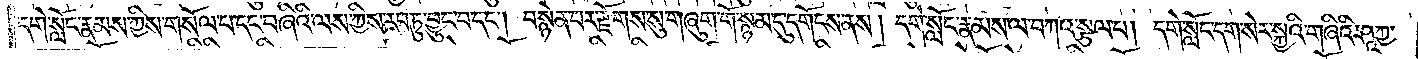དགེ་སློང་རྣམས་ཀྱིས་གསོལ་པ་དང་བཞིའི་ལས་ཀྱིས་རབ་ཏུ་བྱུང་བ་དང༌། བསྙེན་པར་རྫོགས་སུ་གཞུག་གོ་སྙམ་དུ་དགོངས་ནས། དགེ་སློང་རྣམས་ལ་བཀའ་སྩལ་པ། དགེ་སློང་དག་སེར་སྐྱའི་གཞིའི་ཤཱཀྱ་
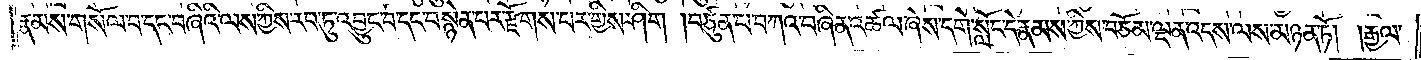རྣམས་གསོལ་བ་དང་བཞིའི་ལས་ཀྱིས་རབ་ཏུ་འབྱུང་བ་དང་བསྙེན་པར་རྫོགས་པར་གྱིས་ཤིག །བཙུན་པ་བཀའ་བཞིན་འཚལ་ཞེས་དགེ་སློང་དེ་རྣམས་ཀྱིས་བཅོམ་ལྡན་འདས་ལས་མཉན་ཏོ། །རྒྱལ་
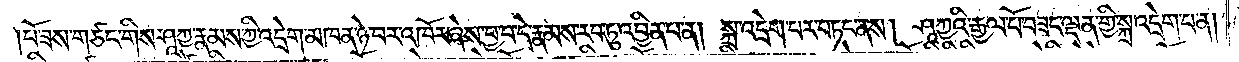པོ་ཟས་གཙང་གིས་ཤཱཀྱ་རྣམས་ཀྱི་འདྲེག་མཁན་ཉེ་བར་འཁོར་ཞེས་བྱ་བ་དེ་རྣམས་རབ་ཏུ་འབྱིན་པ་ན། སྐྲ་འདྲེག་པར་བཏང་ནས། ཤཱཀྱའི་རྒྱལ་པོ་བཟང་ལྡན་གྱི་སྐྲ་འདྲེག་པ་ན།
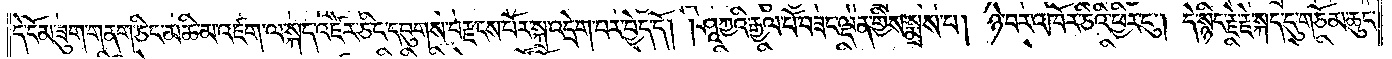དེ་ངོམ་ཟུག་གནག་ཅིང་མཆི་མ་འཛག་ལ་སྐད་འཛེར་ཅིང་དབུགས་བརྫངས་པོར་སྐྲ་འདྲེག་བར་བྱེད་དོ། །ཤཱཀྱའི་རྒྱལ་པོ་བཟང་ལྡན་གྱིས་སྨྲས་པ། ཉེ་བར་འཁོར་ཅིའི་ཕྱིར་ངུ༌། དེ་སྙིང་རྗེ་རྗེ་སྐད་དུ་གཅོམ་ཆུང་
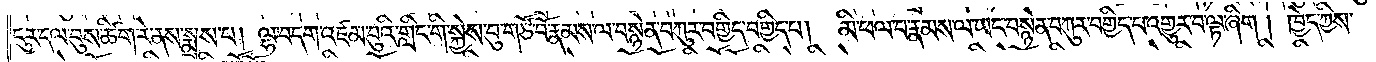ངུར་དལ་བུས་ཚིག་རེ་ནས་སྨྲས་པ། ལྷ་བདག་འཛམ་བུའི་གླིང་གི་སྐྱེས་བུ་གཙོ་བོ་རྣམས་ལ་བསྙེན་བཀུར་བགྱིད་བགྱིད་པ། མི་ཕལ་པ་རྣམས་ལ་ཡང་བསྙེན་བཀུར་བགྱིད་པ་འགྱུར་བ་ལྟ་ཞིག །ཁྱེད་ཀྱིས་
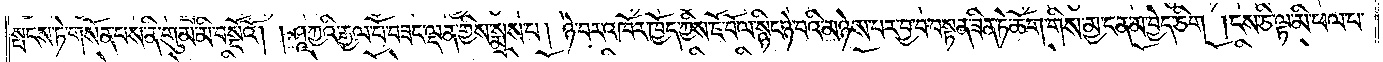སྤངས་ཏེ་གསོན་པས་ནི་གུམ་མི་བསྔོའོ། །ཤཱཀྱའི་རྒྱལ་པོ་བཟང་ལྡན་གྱིས་སྨྲས་པ། ཉེ་བར་འཁོར་ཁྱོད་ཀྱིས་ཇོ་བོ་ལ་སྙིང་ཉེ་བའི་མཉེས་པར་བྱ་བ་བསྟན་ཟིན་ཏེ་ཆོག་གིས་མྱ་ངན་མ་བྱེད་ཅིག །ངས་ཅི་ལྟ་མི་ཕལ་པ་
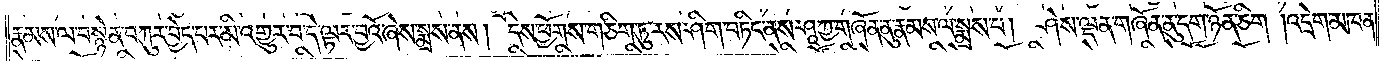རྣམས་ལ་བསྙེན་བཀུར་བྱེད་པར་མི་འགྱུར་བ་དེ་ལྟར་བྱའོ་ཞེས་སྨྲས་ནས། དེས་ཕྱོགས་གཅིག་ཏུ་རས་ཤིག་བཏིང་ནས་ཤཱཀྱ་གཞོན་ནུ་རྣམས་ལ་སྨྲས་པ། ཤེས་ལྡན་གཞོན་ནུ་དག་ཉོན་ཅིག །འདྲེག་མཁན་
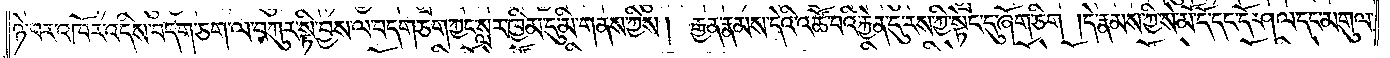ཉེ་བར་འཁོར་འདིས་བདག་ཅག་ལ་བཀུར་སྟི་བྱས་ལ་བདག་ཅག་ཀྱང་སླར་ཁྱིམ་དུ་མི་གནས་ཀྱིས། རྒྱན་རྣམས་དེའི་འཚོ་བའི་རྐྱེན་དུ་རས་ཀྱི་སྟེང་དུ་ཞོག་ཅིག །དེ་རྣམས་ཀྱི་སེ་མོ་དོ་དང་དོ་ཤལ་དང་མགུལ་
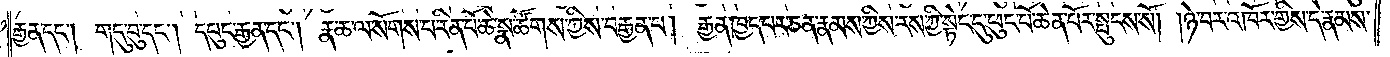རྒྱན་དང༌། གདུ་བུ་དང༌། དཔུང་རྒྱན་དང༌། རྣ་ཆ་ལ་སོགས་པ་རིན་པོ་ཆེ་སྣ་ཚོགས་ཀྱིས་བརྒྱན་པ། རྒྱན་ཁྱད་པར་ཅན་རྣམས་ཀྱིས་རས་ཀྱི་སྟེང་དུ་ཕུང་པོ་ཆེན་པོར་སྤུངས་སོ། །ཉེ་བར་འཁོར་གྱིས་དེ་རྣམས་
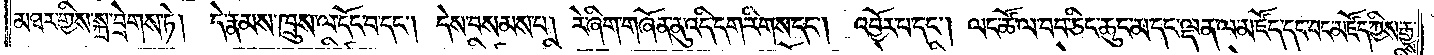མཐར་གྱིས་སྐྲ་བྲེགས་ཏེ། དེ་རྣམས་ཁྲུས་ལ་དོང་བ་དང༌། དེས་བསམས་པ། རེ་ཞིག་གཞོན་ནུ་འདི་དག་རིགས་དང༌། འབྱོར་པ་དང༌། ལང་ཚོ་ལ་བབ་ཅིང་ཆུང་མ་དང་ལྡན་ལ་མཛོད་དང་བང་མཛོད་ཀྱིས་རྒྱས་
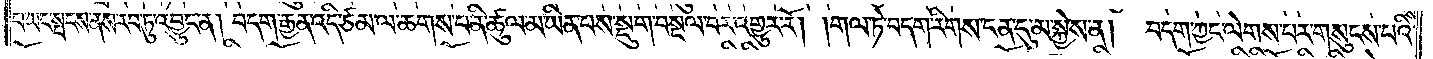པ་ཡང་སྤངས་ནས་རབ་ཏུ་འབྱུང་ན། བདག་རྒྱན་འདི་ཙམ་ལ་ཆགས་པ་ནི་ཚུལ་མ་ཡིན་པས་སྡུག་བསྔལ་བར་འགྱུར་རོ། །གལ་ཏེ་བདག་རིགས་ངན་དུ་མ་སྐྱེས་ན། བདག་ཀྱང་ལེགས་པར་གསུངས་པའི་
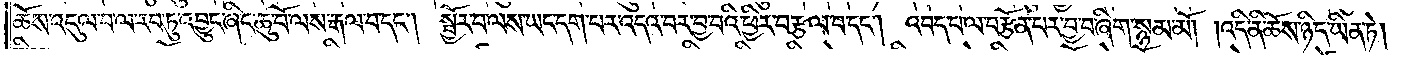ཆོས་འདུལ་བ་ལ་རབ་ཏུ་འབྱུང་ཞིང་ཆུ་བོ་ལས་རྒལ་བ་དང༌། སྦྱོར་བ་ལས་ཡང་དག་པར་འདའ་བར་བྱ་བའི་ཕྱིར་བརྩལ་བ་དང༌། འབད་པ་ལ་བརྩོན་པར་བྱ་བ་ཞིག་སྙམ་མོ། །འདི་ནི་ཆོས་ཉིད་ཡིན་ཏེ།
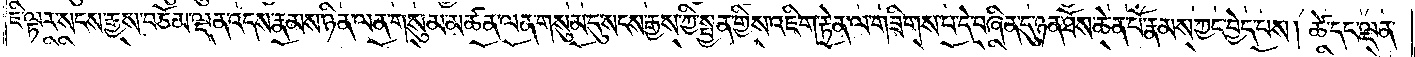ཇི་ལྟར་སངས་རྒྱས་བཅོམ་ལྡན་འདས་རྣམས་ཉིན་ལན་གསུམ་མཚན་ལན་གསུམ་དུ་སངས་རྒྱས་ཀྱི་སྤྱན་གྱིས་འཇིག་རྟེན་ལ་གཟིགས་པ་དེ་བཞིན་དུ་ཉན་ཐོས་ཆེན་པོ་རྣམས་ཀྱང་བྱེད་པས། ཚེ་དང་ལྡན་
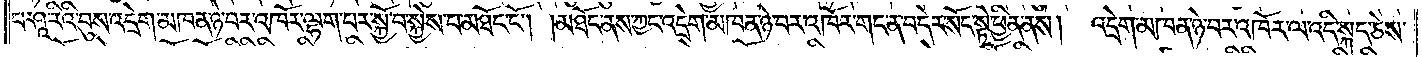པ་ཤཱ་རིའི་བུས་འདྲེག་མཁན་ཉེ་བར་འཁོར་ལྷག་པར་སྐྱོ་བ་སྐྱེས་པ་མཐོང་ངོ༌། །མཐོང་ནས་ཀྱང་འདྲེག་མཁན་ཉེ་བར་འཁོར་གང་ན་བདེར་སོང་སྟེ་ཕྱིན་ནས། འདྲེག་མཁན་ཉེ་བར་འཁོར་ལ་འདི་སྐད་ཅེས་
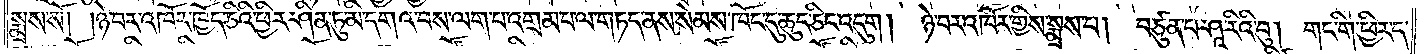སྨྲས་སོ། །ཉེ་བར་འཁོར་ཁྱོད་ཅིའི་ཕྱིར་ཤིན་ཏུ་མི་དགའ་བས་ལག་པ་འགྲམ་པ་ལ་གཏད་ནས་སེམས་ཁོང་དུ་ཆུད་ཅིང་འདུག། ཉེ་བར་འཁོར་གྱིས་སྨྲས་པ། བཙུན་པ་ཤཱ་རིའི་བུ། གང་གི་ཕྱིར་ད་
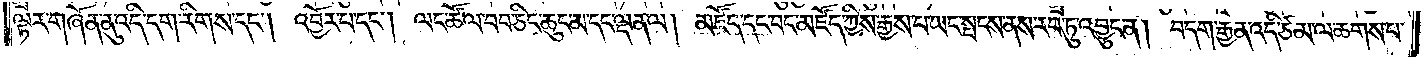ལྟར་གཞོན་ནུ་འདི་དག་རིགས་དང༌། འབྱོར་པ་དང༌། ལང་ཚོ་ལ་བབ་ཅིང་ཆུང་མ་དང་ལྡན་ལ། མཛོད་དང་བང་མཛོད་ཀྱིས་རྒྱས་པ་ཡང་སྤངས་ནས་རབ་ཏུ་འབྱུང་ན། བདག་རྒྱན་འདི་ཙམ་ལ་ཆགས་པ་
